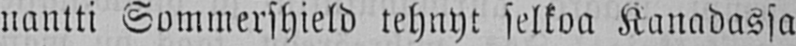nantti Sommershield tehnyt salkoa Kanadassa
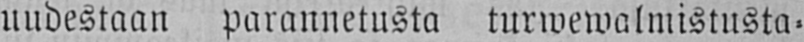uudestaan parannetusta turwewalmistusta-
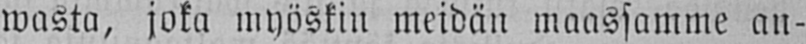wasta, joka myöskin meidän maassamme an-
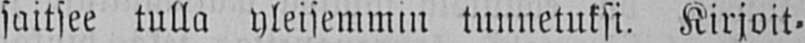saitsee tulla yleisemmin tunnetuksi. Kirjoit-
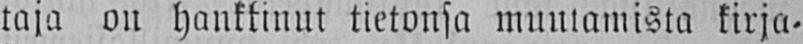taja on hankkinut tietonsa muutamista kirja-
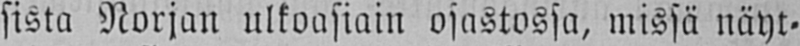sista Norjan ulkoasiain osastossa, missä näyt-
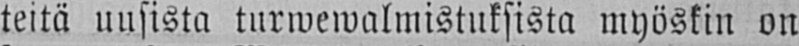teitä uusista turwewalmistuksista myöskin on
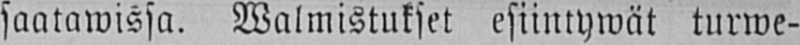saatawissa. Walmistukset esiintywät turwe-
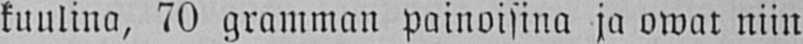kuulina, 70 gramman painoisina ja owat niin
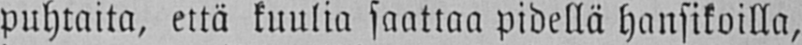puhtaita, että kuulia saattaa pidellä hansikoilla,
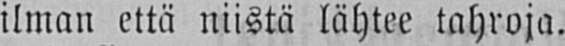ilman että niistä lähtee tahroja.
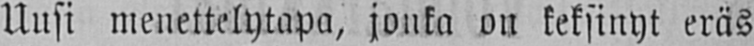Uusi menettelytapa, jonka on keksinyt eräs
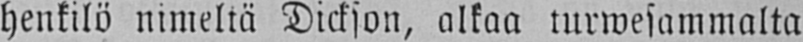henkilö nimeltä Dickson, alkaa turwesammalta
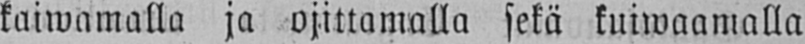kaiwamalla ja ojittamalla sekä kuiwaamalla
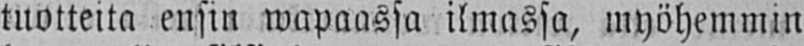tuotteita ensin wapaassa ilmassa, myöhemmin
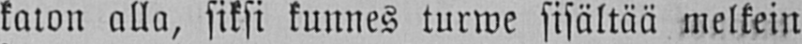katon alla, siksi kunnes turwe sisältää melkein
